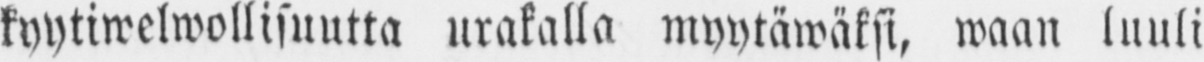kyytiwelwollisuutta urakalla myytäwäksi, waan luuli
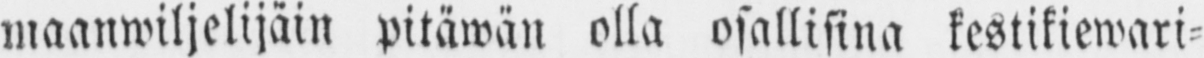maanwiljelijäin pitäwän olla osallisina kestikiewari-
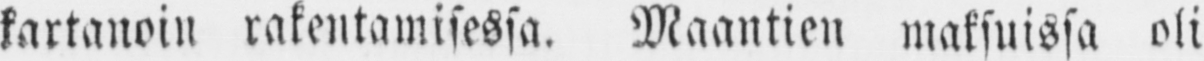kartanoin rakentamisessa. Maantien maksuissa oli
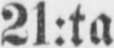21:ta
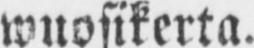wuosikerta.
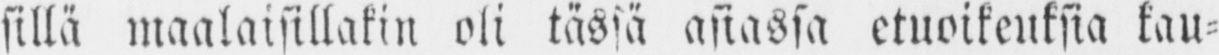sillä maalaisillakin oli tässä asiassa etuoikeuksia kau-
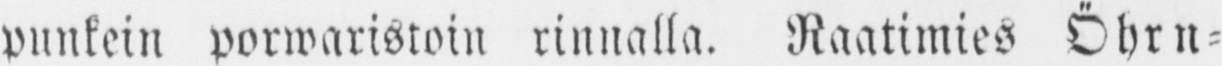punkein porwaristoin rinnalla. Raatimies Öhrn-
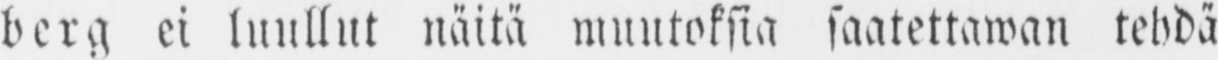berg ei luullut näitä muutoksia saatettawan tehdä
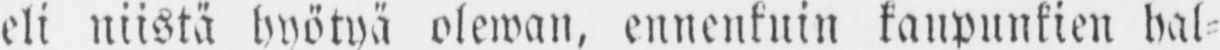eli niistä hyötyä olewan, ennenkuin kaupunkien hal-
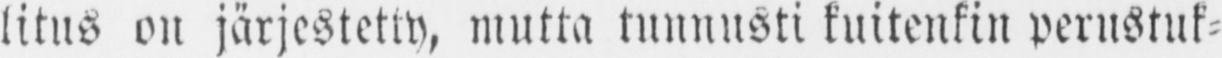litus on järjestetty, mutta tunnusti kuitenkin perustuk-
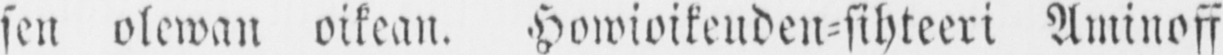sen olewan oikean. Howioikeuden-sihteeri Aminoff
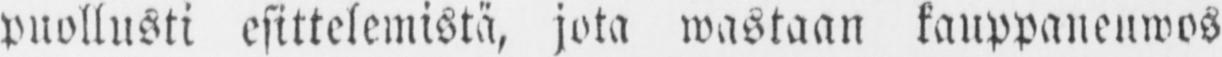puollusti esittelemistä, jota wastaan kauppaneuwos
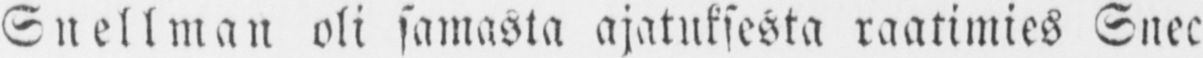Snellman oli samasta ajatuksesta raatimies Snec-
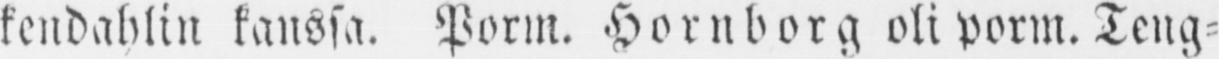kendahlin kanssa. Porm. Hornborg oli porm. Teng-
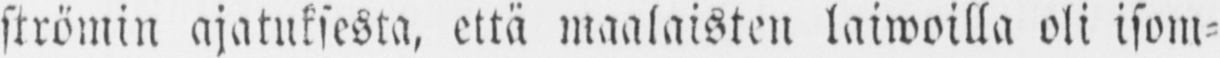strömin ajatuksesta, että maalaisten laiwoilla oli isom-
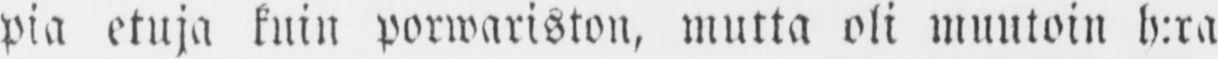pia etuja kuin porwariston, mutta oli muutoin h:ra
